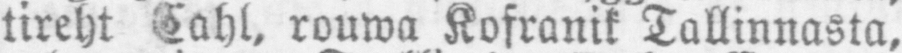tireht Cahl. rouwa Kofranik Tallinnasta,
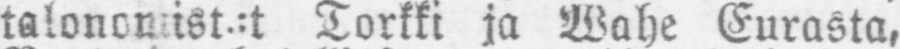talonomist.:t Torkki ja Wahe Eurasta,
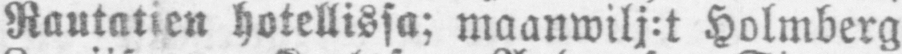Rautatien hotellissa; maanwilj:t Holmberg
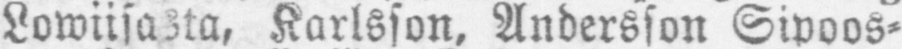Lowiisasta, Karlsson, Andersson Sipoos-
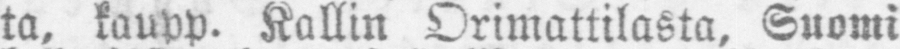ta, kaupp. Kallin Orimattilasta, Suomi
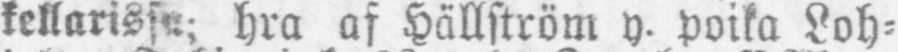kellarissa; hra af Hällström y. poika Loh-
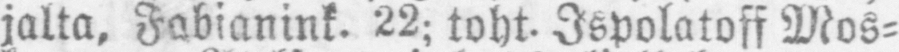jalta, Fabianink. 22; toht. Ispolatoff Mos-
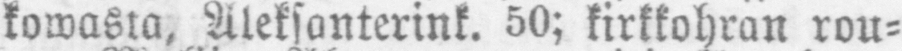kowasta, Aleksanterink. 50; kirkkohran rou-
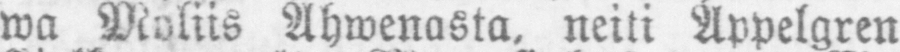wa Moliis Ahwenasta, neiti Appelgren
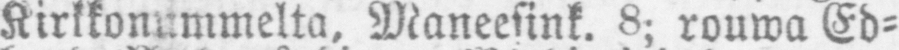Kirkkonummelta, Maneesink. 8; rouwa Ed-
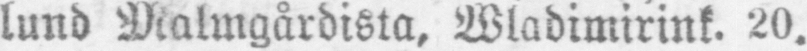lund Malmgårdista, Wladimirink. 20.
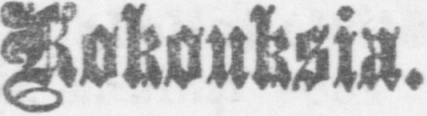Kokouksia.
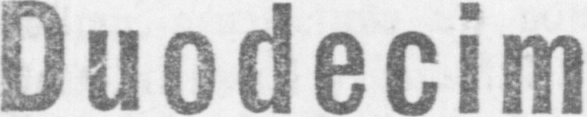Duodecim
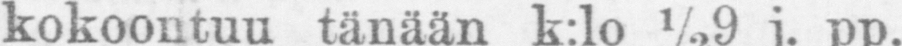kokoontuu tänään k:lo ½9 j. pp.
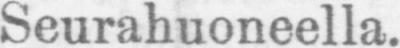Seurahuoneella.
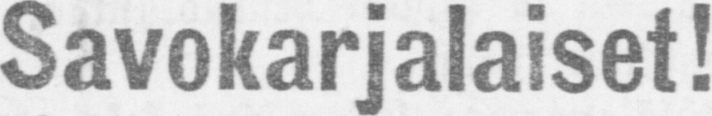Savokarjalaiset!
